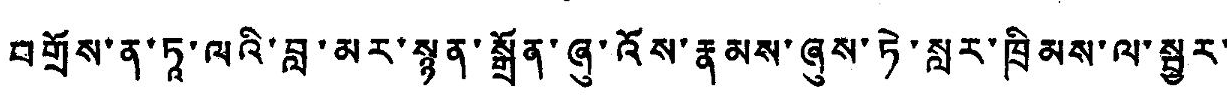བགྲོས་ན་ཏའ་ལའི་བླ་མར་སྙན་སྒྲོན་ཞུ་འོས་རྣམས་ཞུས་ཏེ་སླར་ཁྲིམས་ལ་སྦྱར་
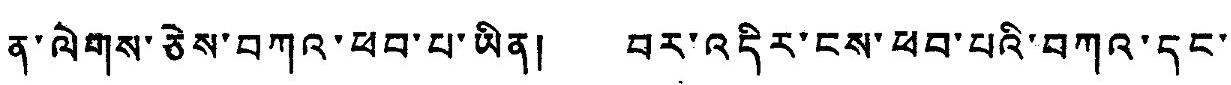ན་ལེགས་ཅེས་བཀའ་ཕབ་པ་ཡིན། བར་འདིར་ངས་ཕབ་པའི་བཀའ་དང་
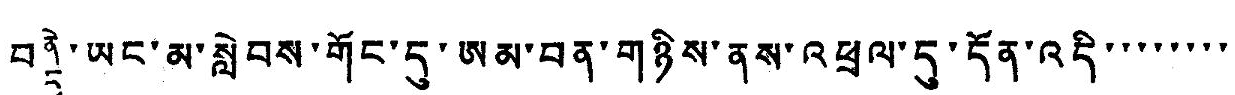བནྡེ་ཡང་མ་སླེབས་གོང་དུ་ཨམ་བན་གཉིས་ནས་འཕྲལ་དུ་དོན་འདི་་་་་་་་
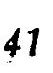41
